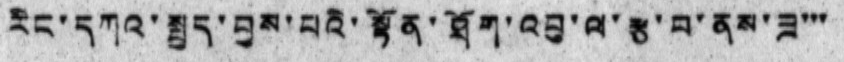རིང་དཀའ་སྤྱད་བྱས་པའི་སྟོན་ཐོག་འབུ་ལ་རྩ་བ་ནས་ཟ་་་
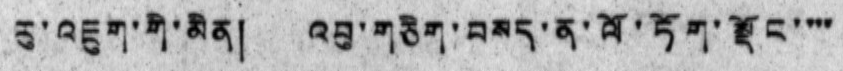རུ་འཇུག་གི་མིན། འབུ་གཅིག་བསད་ན་ལོ་ཏོག་སྡོང་་་་
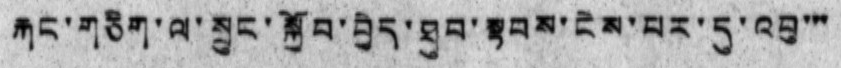རྐང་གཅིག་ལ་སྲུང་སྐྱོབ་བྱེད་ཐུབ་སྟབས་ངེས་པར་དུ་འབུ་་་
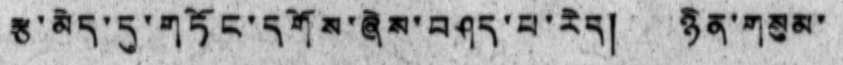རྩ་མེད་དུ་གཏོང་དགོས་ཞེས་བཤད་པ་རེད། ཉིན་གསུམ་
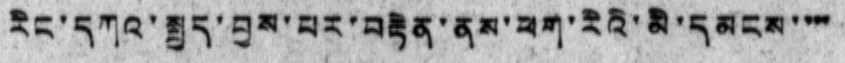རིང་དཀའ་སྤྱད་བྱས་པར་བརྟེན་ནས་ཕག་རིའི་མི་དམངས་་་་
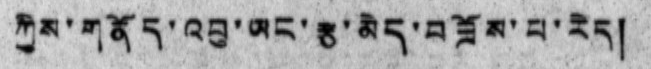ཀྱིས་གནོད་འབུ་ཡང་རྩ་མེད་བཟོས་པ་རེད།
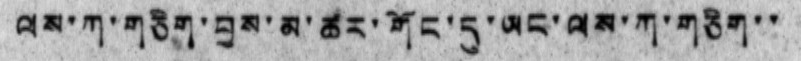ལས་ཀ་གཅིག་བྱས་མ་ཚར་གོང་དུ་ཡང་ལས་ཀ་གཅིག་་
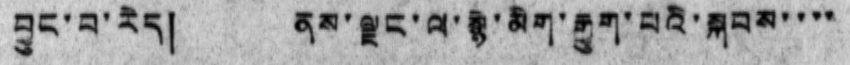བྱུང་བ་རེད། ནས་ལྗང་ལ་སྙེ་མིག་རྒྱུག་པའི་སྐབས་་་་
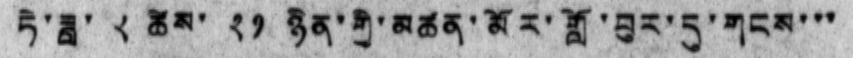ཏེ་ཟླ་ ༨ ཚེས་ ༢༡ ཉིན་གྱི་མཚན་མོར་གློ་བུར་དུ་གངས་་་
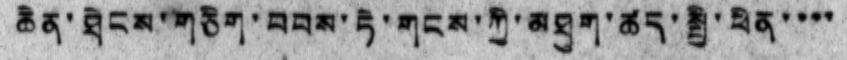ཆེན་ཐེངས་གཅིག་བབས་ཏེ་གངས་ཀྱི་མཐུག་ཚད་སྤྱི་ཕིན་་་་
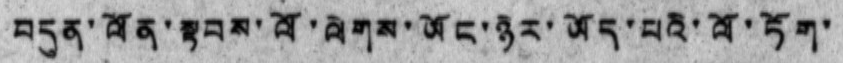བདུན་ལོན་སྟབས་ལོ་ལེགས་ཡོང་ཉེར་ཡོད་པའི་ལོ་ཏོག་
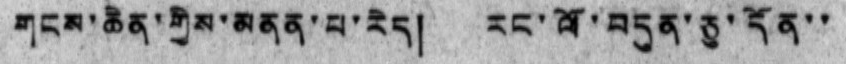གངས་ཆེན་གྱིས་མནན་པ་རེད། རང་ལོ་བདུན་ཅུ་དོན་་
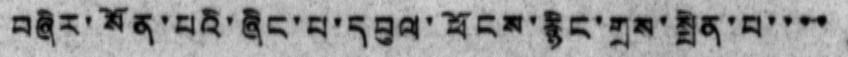བཞིར་སོན་པའི་ཞིང་པ་དབུལ་ཕོངས་རྙིང་གྲས་སྤེན་པ་་་་
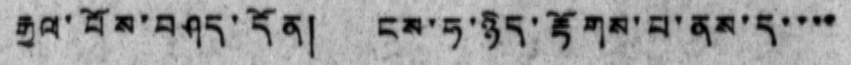རྒྱལ་པོས་བཤད་དོན། ངས་ཧ་ཉིད་རྟོགས་པ་ནས་ད་་་་
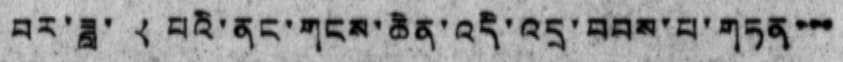བར་ཟླ་ ༨ པའི་ནང་གངས་ཆེན་འདི་འདྲ་བབས་པ་གཏན་་་
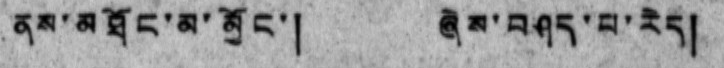ནས་མཐོང་མ་མྱོང་། ཞེས་བཤད་པ་རེད།
